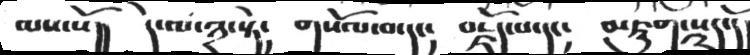ལས་སོ།།  དེ་ལ་༣་སྟེ།  གསོལ་བ་དང།།  བརྗོད་པ་དང།  མཇུག་སྡུད་དོ།
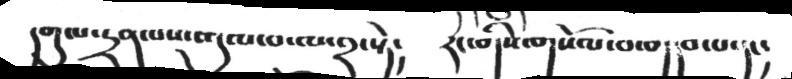དགུལ་དྲན་པས་འདུལ་བ་ལ་༢་སྟེ།  རང་གིས་གསོལ་བ་གདབ་པ་དང།
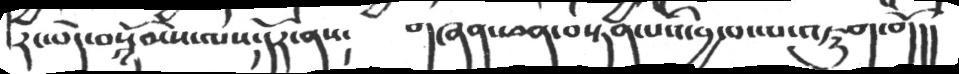རང་བདེ་བསྙོམས་ལས་དོར་ནས།   གཞན་ཕན་བསྟན་པའི་བྱ་བ་ལ་འཇུག་གོ།།
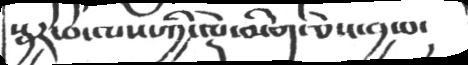སྦྱར་བ་ལས་ཀྱི་ལྡེ་མིག་ཅེས་བྱ་བ།
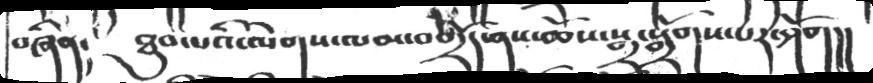བཞིན།  ཐུབ་པའི་ལེགས་ལམ་བགྲོད་ནས་ཆོས་སྒྲ་སྒྲོགས་པར་ཤོག།།
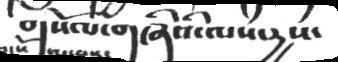གསོལ་གཞིའི་ལས་རྱས་
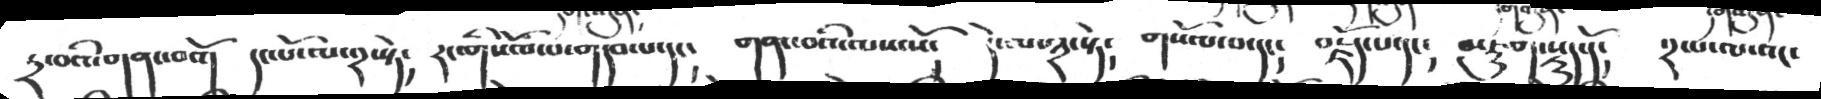ཏྲ་བའི་གནང་བའོ།  དང་པོ་ལ་༢་སྟེ༴  རང་གིས་བོ་པ་གདབ་པ་དང༴  གནང་བའི་ལས་སོ༴  དེ་ལ་༣་སྟེ༴  གསོལ་པ་དང༴  བརྗོད་པ་དང༴  མཇུག་སྡུད་དོ༴  ༢་པ་ལ་འང་
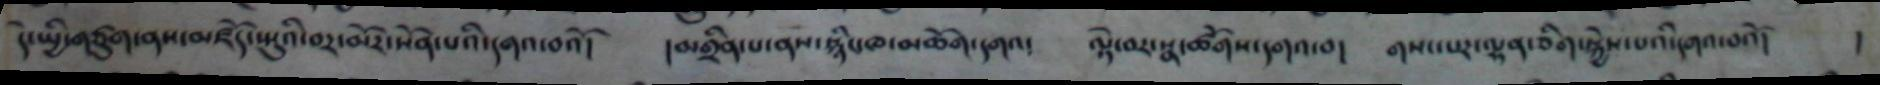དེ་སྤྱི་གཙུག་ནས་མཛོད་སྤུའི་བར་མོར་སོན་པའི་དགའ་བའོ།  །མགྲིན་པ་ནས་སྙིང་ཁ་མཆོག་དགའ༴  ལྟེ་བར་སྣ་ཚོགས་དགའ་བ།  གསང་བར་ལྷན་ཅིག་སྐྱེས་པའི་དགའ་བའོ།
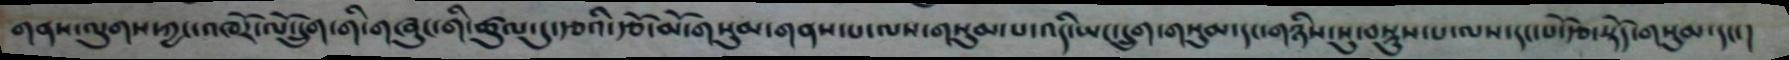གནས་ལུགས་ཀྱང་འཁོར་ལོ་དྲུག་གི་གཞུང་གི་ཚུལ་དུ་རྩའི་རྩོ་མོ་གསུམ་གནས་པ་ལས་གསུམ་པ་འདི་ཡང་དྲུག་གསུམ་དང་གཉིས་སུ་བསྡུས་པ་ལས་དང་པོ་རྩེ་སྟོད་གསུམ་དང་།
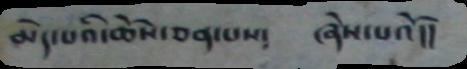ཆེད་པའི་ཆོས་ཅན་པས༴ ཞེས་པའོ།།
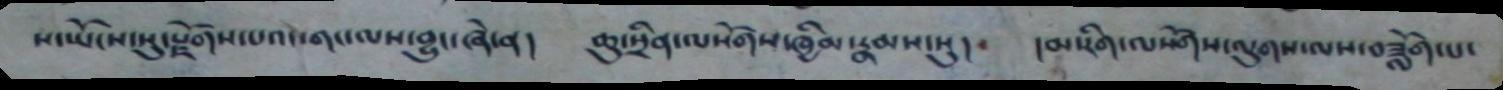ས་ཡོངས་སུ་སྫོགས་པའང་གང་ལས་བྱུང་ཞེ་ན། ཆུ་སྲིན་ལསོགས་ཁྱིམ་རྣམས་སུ། །མ་རིག་ལསོགས་ལུགས་ལས་བཟློག་པ་
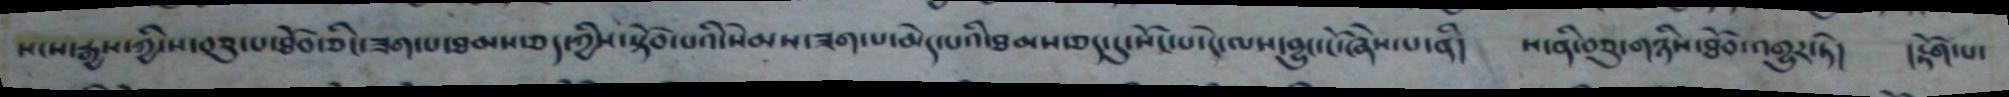སངས་རྒྱས་ཀྱི་ས་བཅུ་པ་ཐོབ་ཅིང་ཟག་པ་ཐམས་ཅད་ཀྱིས་སྟོབ་པའི་སེམས་ཟག་པ་མེད་པའི་ཐམས་ཅད་དུ་སོང་པ་དེ་ལས་བྱུང་ངོ་ཞེས་པ་ནི། ས་ནི་བཅུ་གཉིས་ཐོབ་འགྱུར་ཏེ། །རྟོག་པ་
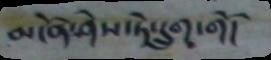མངོན་ཤཻས་ཏེ་དྲུག་གི།
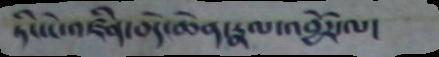ཏིང་ངེ་འཛིན་བདེ་ཆེན་རྣལ་འབྱོར་ལ།
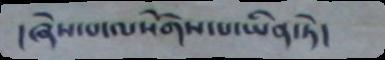།ཞེས་པ་ལསོགས་པ་ཡིན་ཏེ།
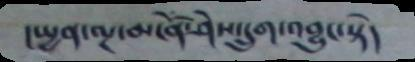།སྤྱན་ལྔ་མངོན་ཤེས་དྲུག་འབྱུང་སྟེ།
